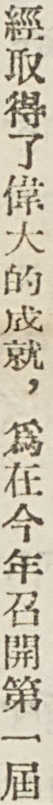經取得了偉大的成就，爲在今年召開第一屆
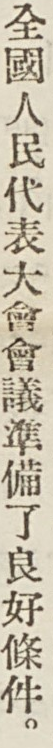全國人民代表大會會議準備了良好條件。
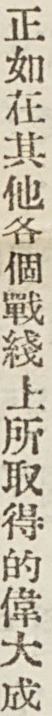正如在其他各個戰綫上所取得的偉大成
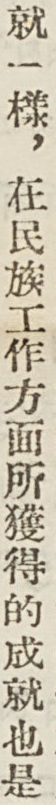就一樣，在民族工作方面所獲得的成就也是
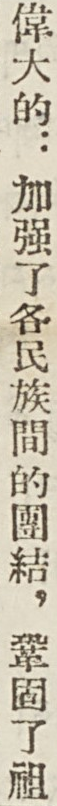偉大的：加強了各民族間的團結，鞏固了祖
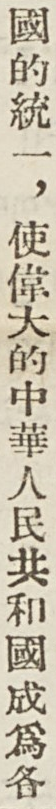國的統一，使偉大的中華人民共和國成爲各
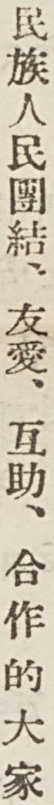民族人民團結、有愛、互助、合作的大家
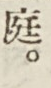庭。
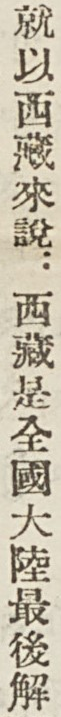就以西藏來說：西藏是全國大陸最後解
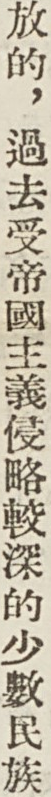放的，過去受帝國主義侵略較深的少數民族
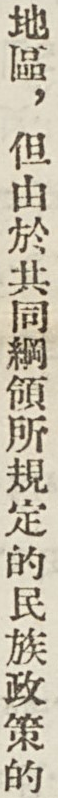地區，但由於共同綱領所規定的民族政策的
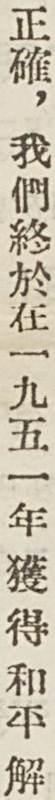正確，我們終於在一九五一年 獲 得 和平 解
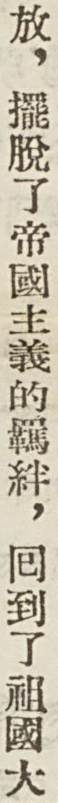放，擺脫了帝國主義的羈絆，囘到了祖國大
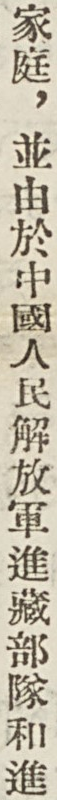家庭，並由於中國人民解放軍進藏部隊和進
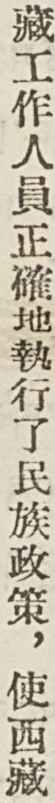藏工作人員正確地執行了民族政策，使西藏
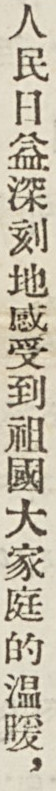人民日益深刻地感受到祖國大家庭的溫暖，
